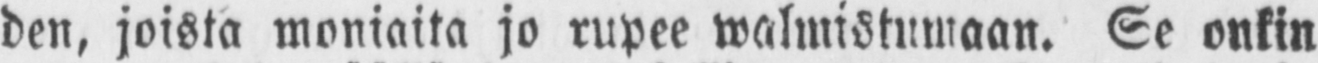den, joista moniaita jo rupee walmistumaan. Se onkin
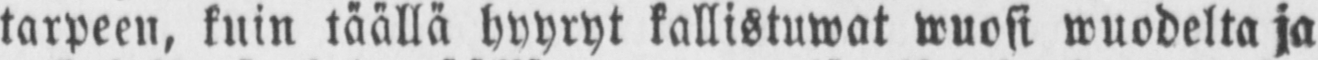tarpeen, kuin täällä hyyryt kallistuwat wuosi wuodelta ja
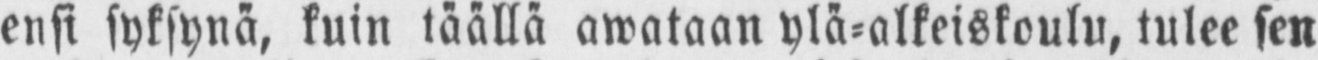ensi syksynä, kuin täällä awataan ylä-alkeiskoulu, tulee sen
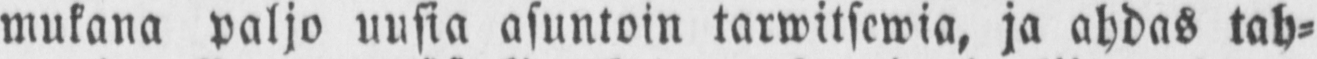mukana paljo uusia asuntoin tarwitsewia, ja abdas tah-
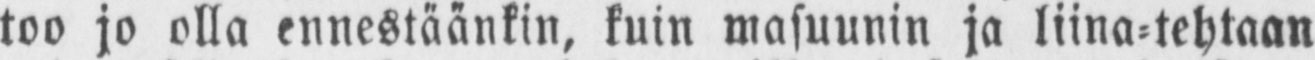too jo olla ennestäänkin, kuin masuunin ja liina-tehtaan
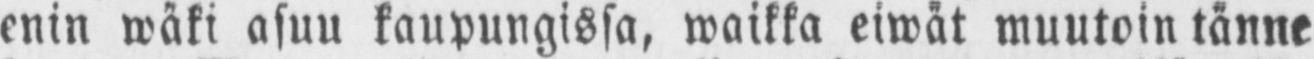enin wäki asuu kaupungissa, waikka eiwät muutoin tänne
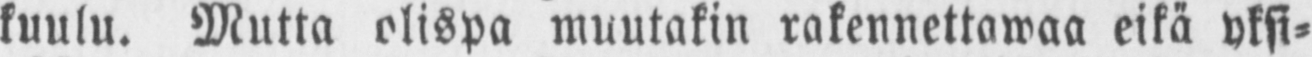kuulu. Mutta olispa muutakin rakennettawaa eikä yksi-
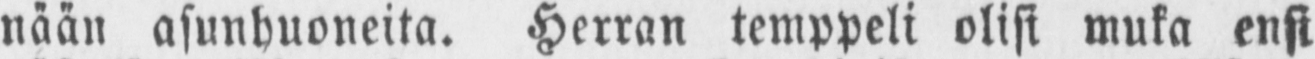nään asunhuoneita. Herran temppeli olisi muka ensi
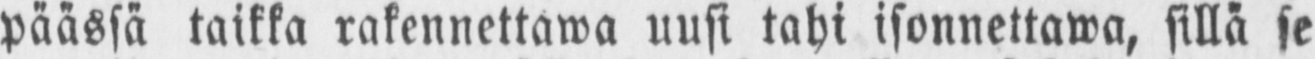päässä taikka rakennettawa uusi tahi isonnettawa, sillä se
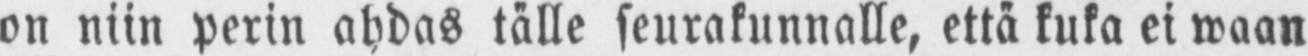on niin perin ahdas tälle seurakunnalle, että kuka ei waan
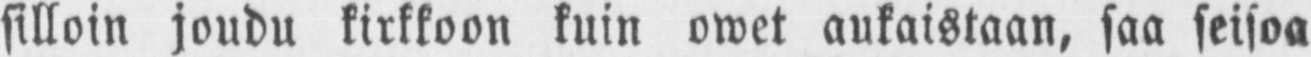silloin joudu kirkkoon kuin owet aukaistaan, saa seisoa
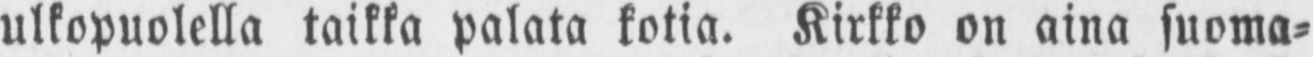ulkopuolella taikka palata kotia. Kirkko on aina suoma-
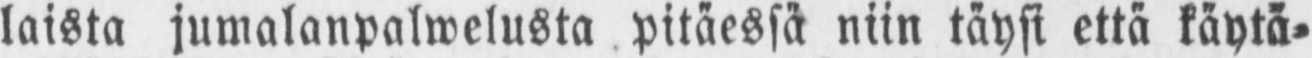laista jumalanpalwelusta pitäessä niin täysi että käytä-
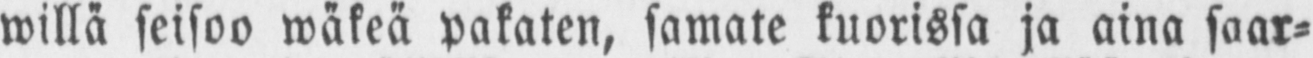willä seisoo wäkeä pakaten, samate kuorissa ja aina saar-
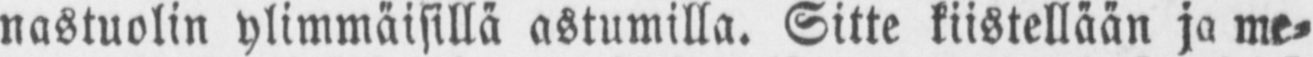nastuolin ylimmäisillä astumilla. Sitte kiistellään ja me-
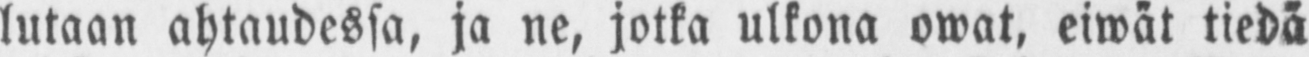lutaan ahtaudessa, ja ne, jotka ulkona owat, eiwät tiedä
